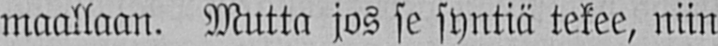maallaan. Mutta jos se syntiä tekee, niin
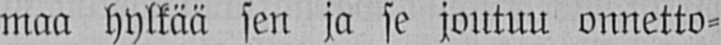maa hylkää sen ja se joutuu onnetto-
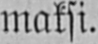maksi.
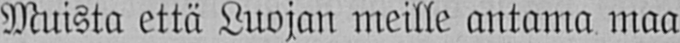Muista että Luojan meille antama maa
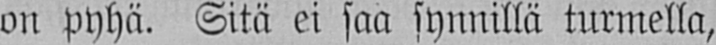on pyhä. Sitä ei saa synnillä turmella,
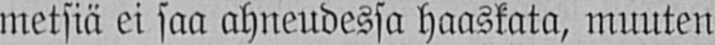metsiä ei saa ahneudessa haaskata, muuten
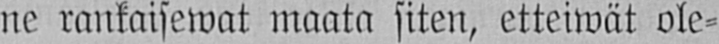ne rankaisewat maata siten, etteiwät ole-
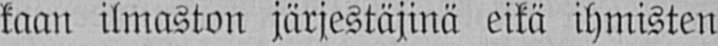kaan ilmaston järjestäjinä eikä ihmisten
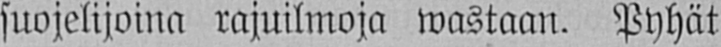suojelijoina rajuilmoja wastaan. Pyhät
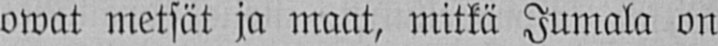owat metsät ja maat, mitkä Jumala on
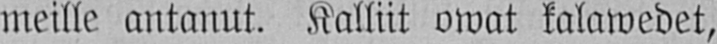meille antanut. Kalliit owat kalawedet,
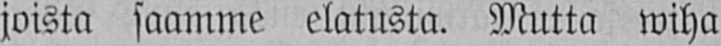joista saamme elatusta. Mutta wiha
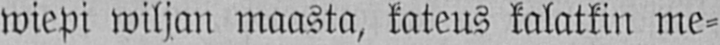wiepi wiljan maasta, kateus kalatkin me-
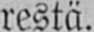restä.
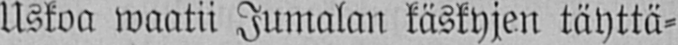Uskoa waatii Jumalan käskyjen täyttä-
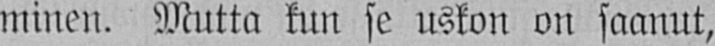minen. Mutta kun se uskon on saanut,
